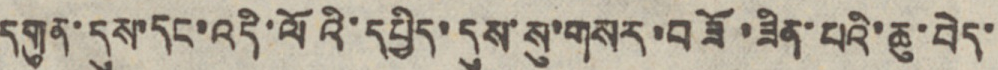དགུན་དུས་དང་འདི་ལོའི་དཔྱིད་དུས་སུ་གསར་བཟོ་ཟིན་པའི་ཆུ་བེད་
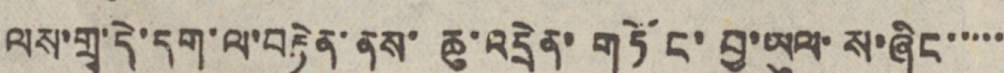ལས་གྲྭ་དེ་དག་ལ་བརྟེན་ནས་ཆུ་འདྲེན་གཏོང་བྱ་ཡུལ་ས་ཞིང་་་་་
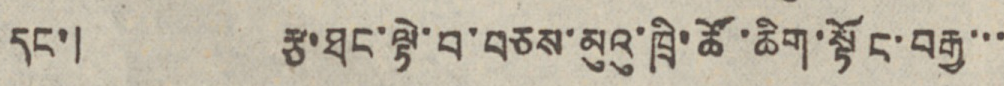དང་། རྩ་ཐང་ལྟེ་བ་བཅས་མུའུ་ཁྲི་ཚོ་ཆིག་སྟོང་བརྒྱ་་་
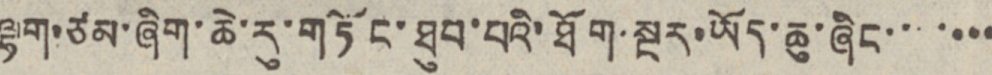ལྷག་ཙམ་ཞིག་ཆེ་རུ་གཏོང་ཐུབ་པའི་ཐོག་སྔར་ཡོད་ཆུ་ཞིང་་་་་་་
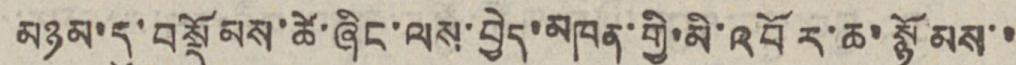མཉམ་དུ་བསྡོམས་ཚེ་ཞིང་ལས་བྱེད་མཁན་གྱི་མི་འབོར་ཆ་སྙོམས་་
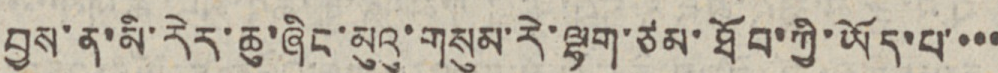བྱས་ན་མི་རེར་ཆུ་ཞིང་མུའུ་གསུམ་རེ་ལྷག་ཙམ་ཐོབ་ཀྱི་ཡོད་པ་་་་
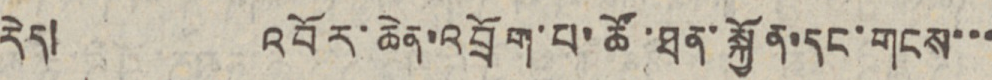རེད། འབོར་ཆེན་འབྲོག་པ་ཚོ་ཐན་སྐྱོན་དང་གངས་་་
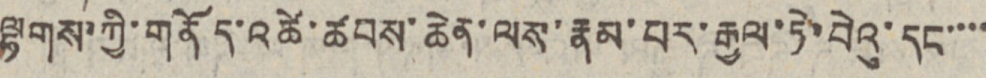ལྷགས་ཀྱི་གནོད་འཚེ་ཚབས་ཆེན་ལས་རྣམ་པར་རྒྱལ་ཏེ་བེའུ་དང་་་་
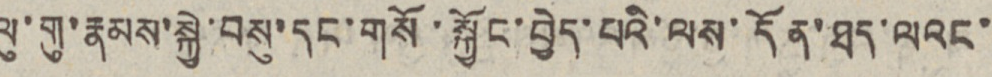ལུ་གུ་རྣམས་སྐྱེ་བསུ་དང་གསོ་སྐྱོང་བྱེད་པའི་ལས་དོན་ཐད་ལའང་
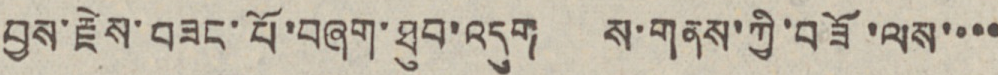བྱས་རྗེས་བཟང་པོ་བཞག་ཐུབ་འདུག ས་གནས་ཀྱི་བཟོ་ལས་་་་
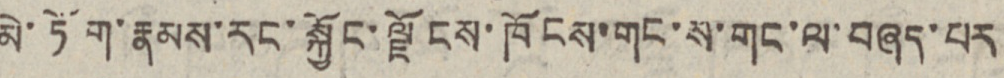མེ་ཏོག་རྣམས་རང་སྐྱོང་ལྗོངས་ཁོངས་གང་ས་གང་ལ་བཞད་པར
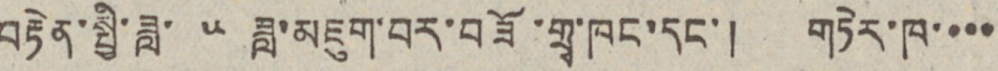བརྟེན་སྤྱི་ཟླ་ ༥ ཟླ་མཇུག་པར་བཟོ་གྲྭ་ཁང་དང་། གཏེར་ཁ་་་་
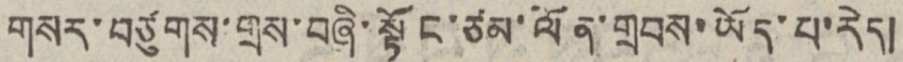གསར་བཙུགས་གྲས་བཞི་སྟོང་ཙམ་ལོན་གྲབས་ཡོད་པ་རེད།
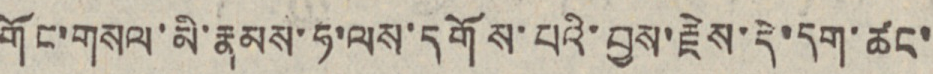གོང་གསལ་མི་རྣམས་ཧ་ལས་དགོས་པའི་བྱས་རྗེས་དེ་དག་ཚང་
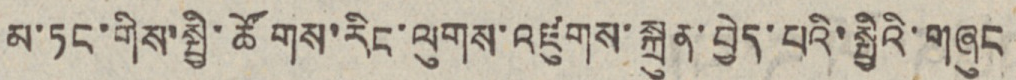མ་ཏང་གིས་སྤྱི་ཚོགས་རིང་ལུགས་འཛུགས་སྐྲུན་བྱེད་པའི་སྤྱིའི་གཞུང
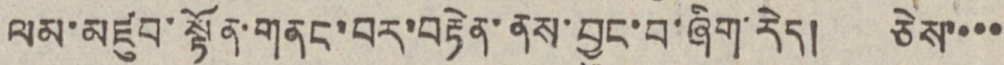ལམ་མཛུབ་སྟོན་གནང་བར་བརྟེན་ནས་བྱུང་བ་ཞིག་རེད། ཅེས་་་་
